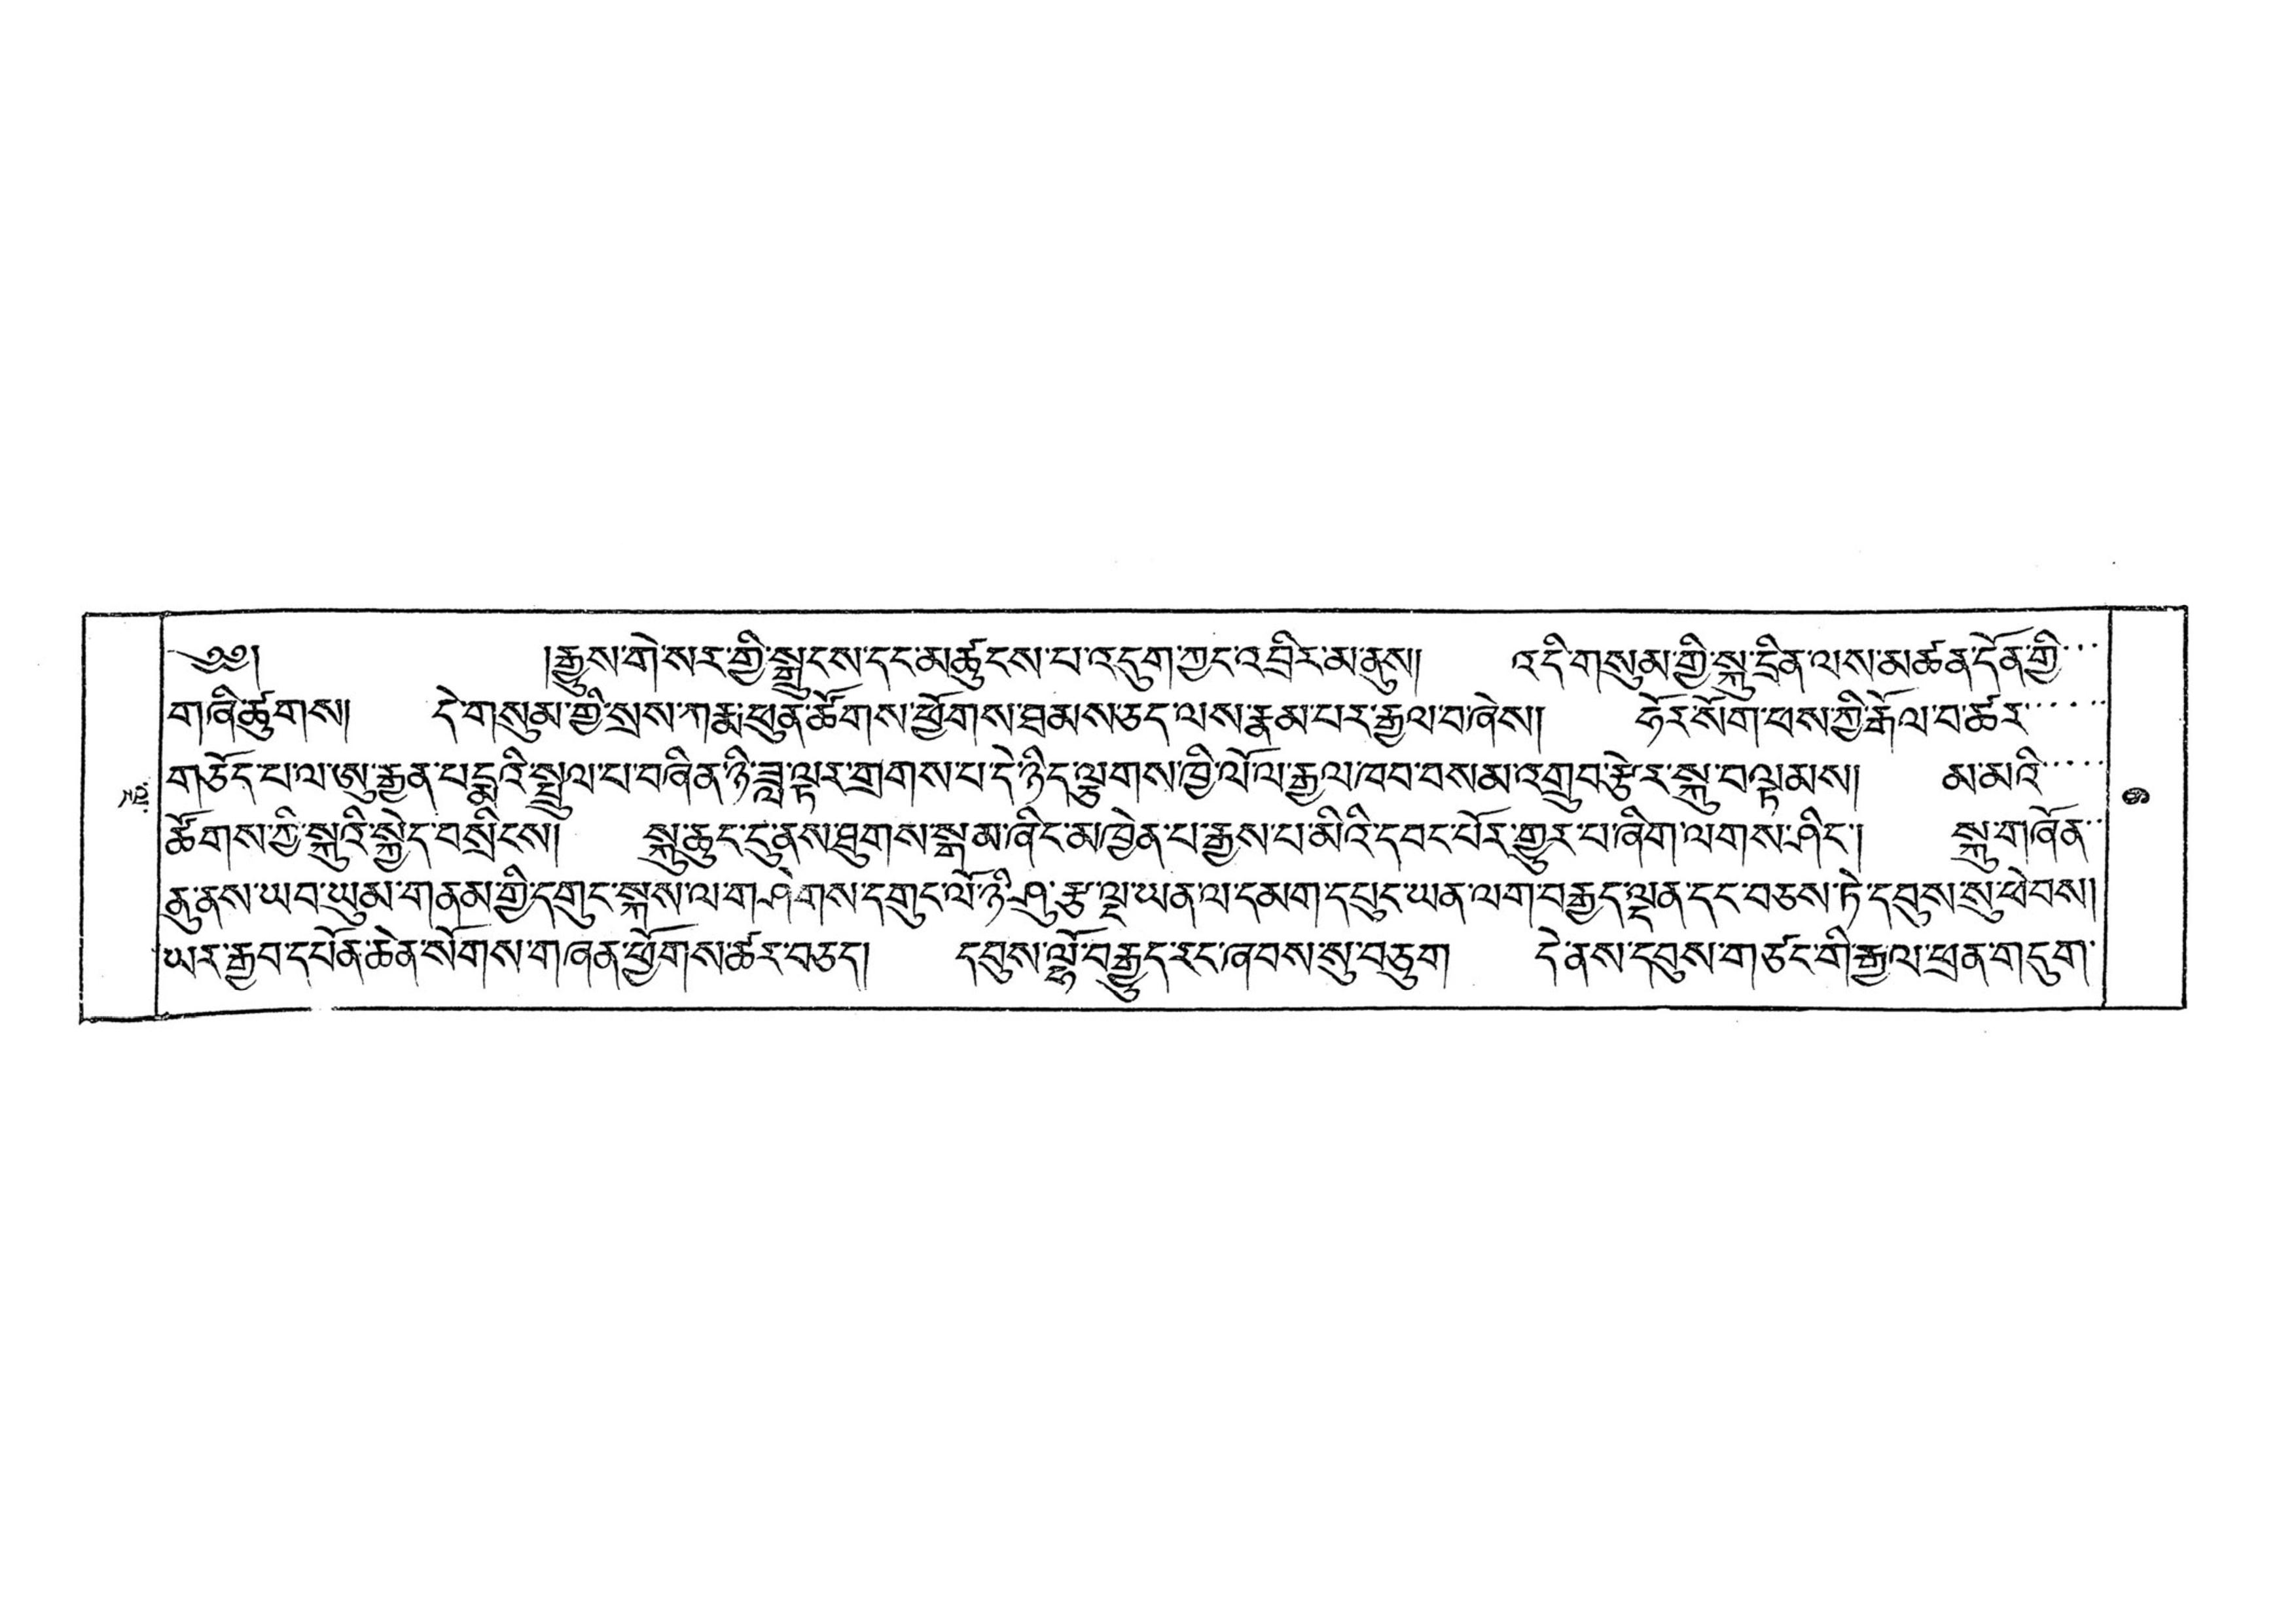ལྔ་
༄༅། །རྒྱུས་གེ་སར་གྱི་སྒྲུངས་དང་མཚུངས་པ་འདུག་ཀྱང་འབྲིར་མནུས། འདི་གསུམ་གྱི་སྐུ་དྲིན་ལས་མཚན་དོན་གྱི་་་
གཞི་ཚུགས། དེ་གསུམ་གྱི་སྲས་ཀརྨ་ཕུན་ཚོགས་ཕྱོགས་ཐམས་ཅད་ལས་རྣམ་པར་རྒྱལ་བ་ཞེས། ཧོར་སོག་ཕས་ཀྱི་རྒོལ་བ་ཚར་་་་་་
གཅོད་པ་ལ་ཨུ་རྒྱན་པདྨའི་སྤྲུལ་པ་བཞིན་ཉི་ཟླ་ལྟར་གྲགས་པ་དེ་ཉིད་ལྕགས་ཁྱི་ལོ་ལ་རྒྱལ་ཁབ་བསམ་འགྲུབ་རྩེར་སྐུ་བལྟམས། མ་མའི་་་་་
ཚོགས་ཀྱི་སྐུའི་སྐྱེད་བསྲིངས། སྐུ་ཆུང་ངུ་ནས་ཐུགས་སྒམ་ཞིང་མཁྱེན་པ་རྒྱས་པ་མིའི་དབང་པོར་གྱུར་པ་ཞིག་ལགས་ཤིང་། སྐུ་གཞོན་་
ནུ་ནས་ཡབ་ཡུམ་གནམ་གྱི་དགུང་སྐས་ལ་གཤེགས་དགུང་ལོ་ཉི་ཤུ་རྩ་ལྔ་ཡན་ལ་དམག་དཔུང་ཡན་ལག་བརྒྱད་ལྡན་དང་བཅས་ཏེ་དབུས་སུ་ཕེུབས།
ཡར་རྒྱབ་དཔོན་ཆེན་སོགས་གཞན་ཕྱོགས་ཚར་བཅད། དབུས་ལྷོ་བརྒྱུད་རང་ཞབས་སུ་བཅུག དེ་ནས་དབུས་གཙང་གི་རྒྱལ་ཕྲན་གདུག་
